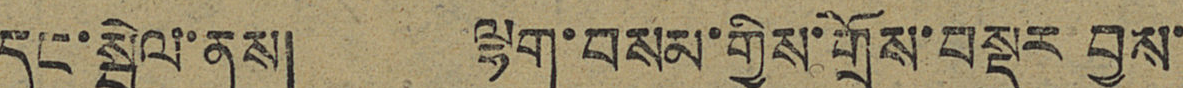དང་སྦྲེལ་ནས། ལྷག་བསམ་གྱིས་གྲོས་བསྡུར བྱས་
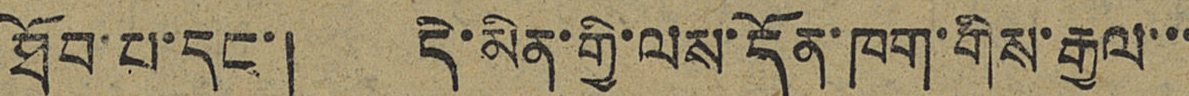ཐོབ་པ་དང་། དེ་མིན་གྱི་ལས་དོན་ཁག་གིས་རྒྱལ་་་
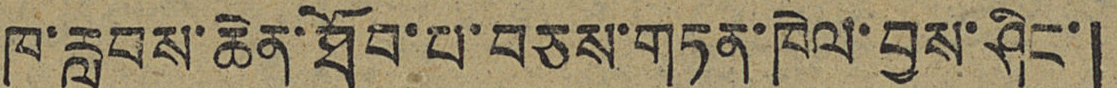ཁ་རབས་ཆེན་ཐོབ་པ་བཅས་གཏན་ཁེལ་བྱས་ཤིང་།
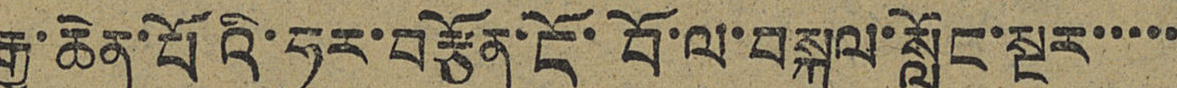རྒྱ་ཆེན་པོའི་ཧུར་བརྩོན་ངོ་བོ་ལ་བསྐུལ་སློང་སྔར་་་་་
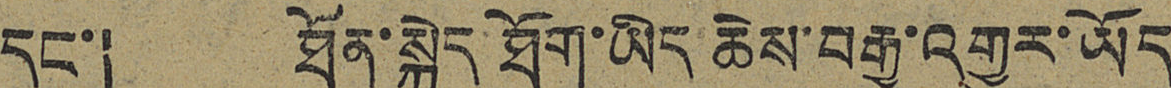དང་། ཐོན་སྐྱེད ཐོག་ཡིད ཆེས་བརྒྱ་འགྱུར་ཡོད
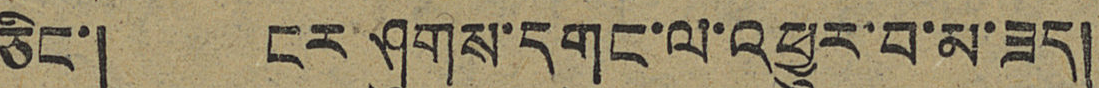ཅིང་། ངར ཤུགས་དགུང་ལ་འཕྱུར་བ་མ་ཟད།
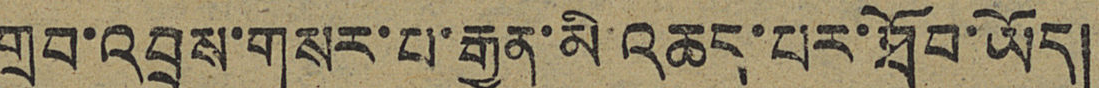གྲུབ་འབྲེས་གསར་པ་རྒྱུན་མི་འཆད་པར་ཐོབ་ཡོད།
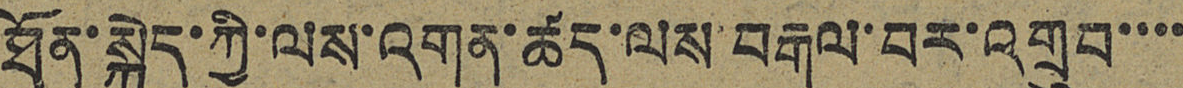ཐོན་སྐྱེད་ཀྱི་ལས་འགན་ཚད་ལས་བརྒལ་བར་འགྲུབ་་་་
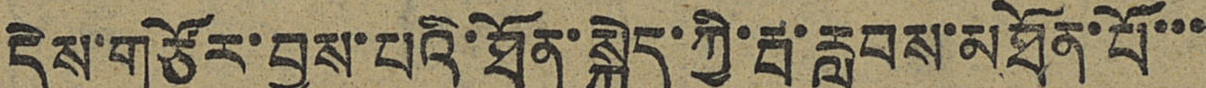དེས་གཙོར་བྱས་པའི་ཐོན་སྐྱེད་ཀྱི་རྦ་རླབས་མཐོན་པོ་་་
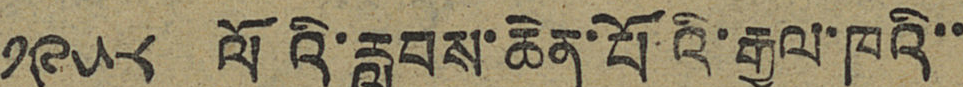༡༩༥༨ ལོའི་རླབས་ཆེན་པོའི་རྒྱལ་ཁའི་་
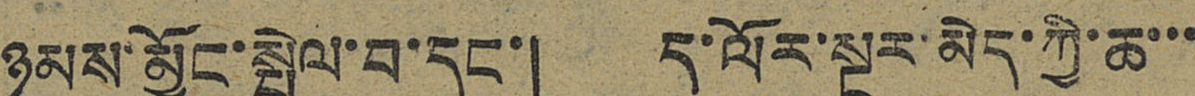ཉམས་མྱོང་སྤེལ་བ་དང་། ད་ལོར་སྔར་མེད་ཀྱི་ཆ་་་
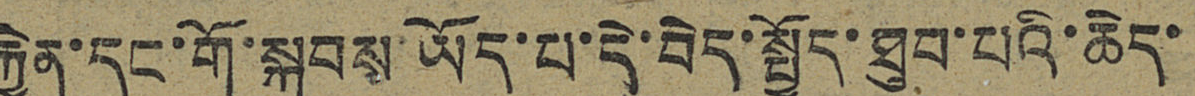རྐྱེན་དང་གོ་སྐབས་ཡོད་པ་དེ་བེད་སྤྱོད་ཐུབ་པའི་ཆེད་
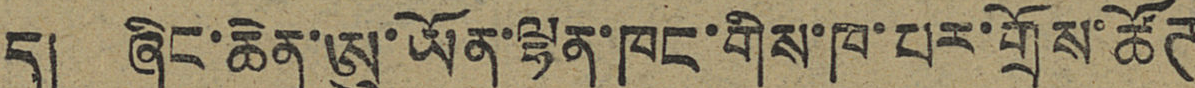དུ། ཞིང་ཆེན་ཨུ་ཡོན་ལྷན་ཁང་གིས་ཁ་པར་གྲོས་ཚོཊ
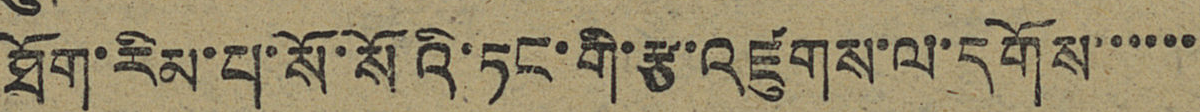ཐོག་རིམ་པ་སོ་སོའི་ཏང་གི་རྩ་འཛུགས་ལ་དགོས་་་་་་
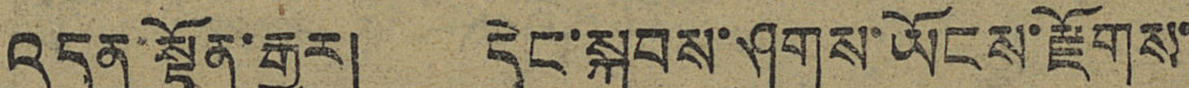འདུན་སྟོན་རྒྱུར། དེང་སྐབས་ཤུགས་ཡོངས་རྫོགས་
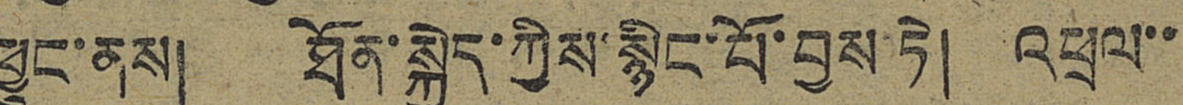ཕྱུང་ནས། ཐོན་སྐྱེད་ཀྱིས་སྙིང་པོ་བྱས་ཏེ། འཕྲལ་་
